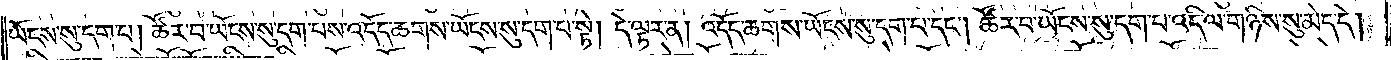ཡོངས་སུ་དག་པ། ཚོར་བ་ཡོངས་སུ་དག་པས་འདོད་ཆགས་ཡོངས་སུ་དག་པ་སྟེ། དེ་ལྟར་ན། འདོད་ཆགས་ཡོངས་སུ་དག་པ་དང༌། ཚོར་བ་ཡོངས་སུ་དག་པ་འདི་ལ་གཉིས་སུ་མེད་དེ།
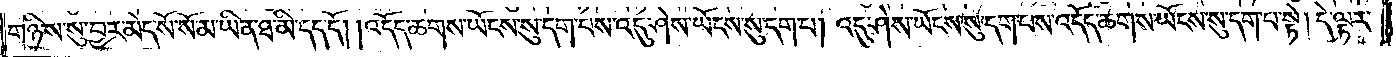གཉིས་སུ་བྱར་མེད་སོ་སོ་མ་ཡིན་ཐ་མི་དད་དོ། །འདོད་ཆགས་ཡོངས་སུ་དག་པས་འདུ་ཤེས་ཡོངས་སུ་དག་པ། འདུ་ཤེས་ཡོངས་སུ་དག་པས་འདོད་ཆགས་ཡོངས་སུ་དག་པ་སྟེ། དེ་ལྟར་
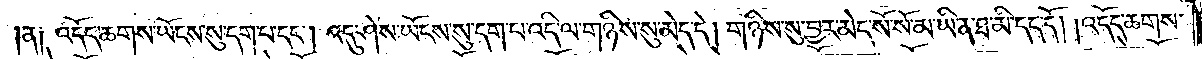ན༑ འདོད་ཆགས་ཡོངས་སུ་དག་པ་དང༌། འདུ་ཤེས་ཡོངས་སུ་དག་པ་འདི་ལ་གཉིས་སུ་མེད་དེ། གཉིས་སུ་བྱར་མེད་སོ་སོ་མ་ཡིན་ཐ་མི་དད་དོ། །འདོད་ཆགས་
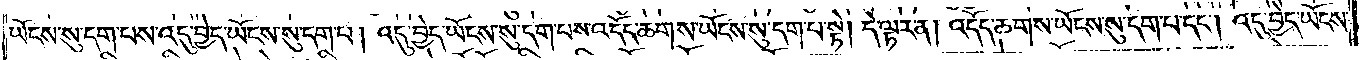ཡོངས་སུ་དག་པས་འདུ་བྱེད་ཡོངས་སུ་དག་པ། འདུ་བྱེད་ཡོངས་སུ་དག་པས་འདོད་ཆགས་ཡོངས་སུ་དག་པ་སྟེ། དེ་ལྟར་ན། འདོད་ཆགས་ཡོངས་སུ་དག་པ་དང༌། འདུ་བྱེད་ཡོངས་
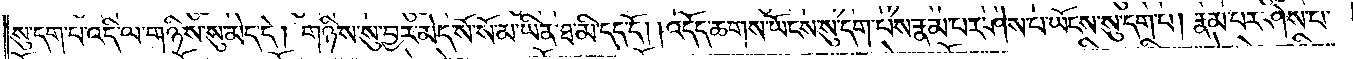སུ་དག་པ་འདི་ལ་གཉིས་སུ་མེད་དེ། གཉིས་སུ་བྱར་མེད་སོ་སོ་མ་ཡིན་ཐ་མི་དད་དོ། །འདོད་ཆགས་ཡོངས་སུ་དག་པས་རྣམ་པར་ཤེས་པ་ཡོངས་སུ་དག་པ། རྣམ་པར་ཤེས་པ་
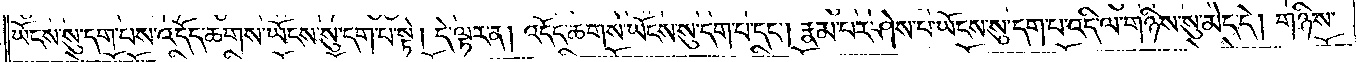ཡོངས་སུ་དག་པས་འདོད་ཆགས་ཡོངས་སུ་དག་པ་སྟེ། དེ་ལྟར་ན། འདོད་ཆགས་ཡོངས་སུ་དག་པ་དང༌། རྣམ་པར་ཤེས་པ་ཡོངས་སུ་དག་པ་འདི་ལ་གཉིས་སུ་མེད་དེ། གཉིས་
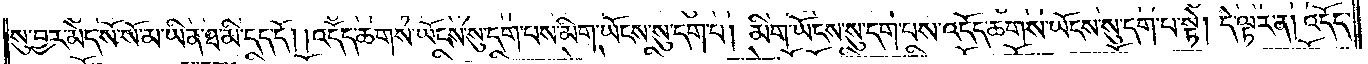སུ་བྱར་མེད་སོ་སོ་མ་ཡིན་ཐ་མི་དད་དོ། །འདོད་ཆགས་ཡོངས་སུ་དག་པས་མིག་ཡོངས་སུ་དག་པ། མིག་ཡོངས་སུ་དག་པས་འདོད་ཆགས་ཡོངས་སུ་དག་པ་སྟེ། དེ་ལྟར་ན། འདོད་
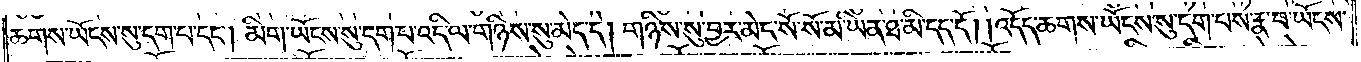ཆགས་ཡོངས་སུ་དག་པ་དང༌། མིག་ཡོངས་སུ་དག་པ་འདི་ལ་གཉིས་སུ་མེད་དེ། གཉིས་སུ་བྱར་མེད་སོ་སོ་མ་ཡིན་ཐ་མི་དད་དོ། །འདོད་ཆགས་ཡོངས་སུ་དག་པས་རྣ་བ་ཡོངས་
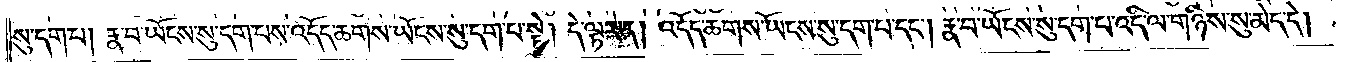སུ་དག་པ། རྣ་བ་ཡོངས་སུ་དག་པས་འདོད་ཆགས་ཡོངས་སུ་དག་པ་སྟེ། དེ་ལྟར་ན། འདོད་ཆགས་ཡོངས་སུ་དག་པ་དང༌། རྣ་བ་ཡོངས་སུ་དག་པ་འདི་ལ་གཉིས་སུ་མེད་དེ་
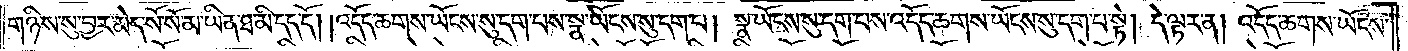གཉིས་སུ་བྱར་མེད་སོ་སོ་མ་ཡིན་ཐ་མི་དད་དོ། །འདོད་ཆགས་ཡོངས་སུ་དག་པས་སྣ་ཡོངས་སུ་དག་པ། སྣ་ཡོངས་སུ་དག་པས་འདོད་ཆགས་ཡོངས་སུ་དག་པ་སྟེ། དེ་ལྟར་ན། འདོད་ཆགས་ཡོངས་
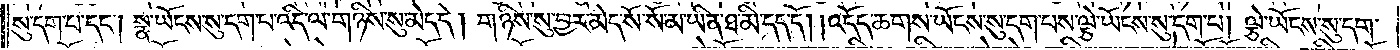སུ་དག་པ་དང༌། སྣ་ཡོངས་སུ་དག་པ་འདི་ལ་གཉིས་སུ་མེད་དེ། གཉིས་སུ་བྱར་མེད་སོ་སོ་མ་ཡིན་ཐ་མི་དད་དོ། །འདོད་ཆགས་ཡོངས་སུ་དག་པས་ལྕེ་ཡོངས་སུ་དག་པ། ལྕེ་ཡོངས་སུ་དག་
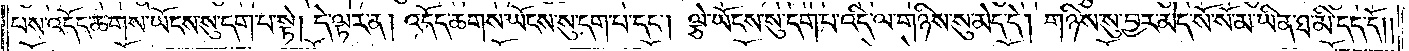པས་འདོད་ཆགས་ཡོངས་སུ་དག་པ་སྟེ། དེ་ལྟར་ན། འདོད་ཆགས་ཡོངས་སུ་དག་པ་དང༌། ལྕེ་ཡོངས་སུ་དག་པ་འདི་ལ་གཉིས་སུ་མེད་དེ། གཉིས་སུ་བྱར་མེད་སོ་སོ་མ་ཡིན་ཐ་མི་དད་དོ། །
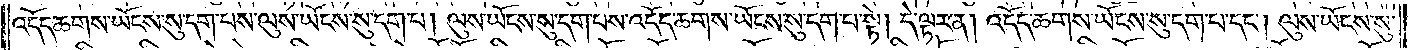འདོད་ཆགས་ཡོངས་སུ་དག་པས་ལུས་ཡོངས་སུ་དག་པ། ལུས་ཡོངས་སུ་དག་པས་འདོད་ཆགས་ཡོངས་སུ་དག་པ་སྟེ། དེ་ལྟར་ན། འདོད་ཆགས་ཡོངས་སུ་དག་པ་དང༌། ལུས་ཡོངས་སུ་
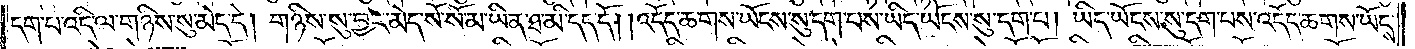དག་པ་འདི་ལ་གཉིས་སུ་མེད་དེ། གཉིས་སུ་བྱར་མེད་སོ་སོ་མ་ཡིན་ཐ་མི་དད་དོ། །འདོད་ཆགས་ཡོངས་སུ་དག་པས་ཡིད་ཡོངས་སུ་དག་པ། ཡིད་ཡོངས་སུ་དག་པས་འདོད་ཆགས་ཡོངས་
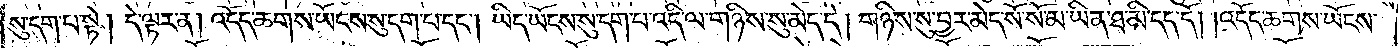སུ་དག་པ་སྟེ། དེ་ལྟར་ན། འདོད་ཆགས་ཡོངས་སུ་དག་པ་དང༌། ཡིད་ཡོངས་སུ་དག་པ་འདི་ལ་གཉིས་སུ་མེད་དེ། གཉིས་སུ་བྱར་མེད་སོ་སོ་མ་ཡིན་ཐ་མི་དད་དོ། །འདོད་ཆགས་ཡོངས་
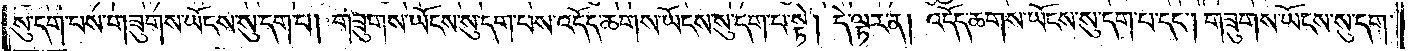སུ་དག་པས་གཟུགས་ཡོངས་སུ་དག་པ། གཟུགས་ཡོངས་སུ་དག་པས་འདོད་ཆགས་ཡོངས་སུ་དག་པ་སྟེ། དེ་ལྟར་ན། འདོད་ཆགས་ཡོངས་སུ་དག་པ་དང༌། གཟུགས་ཡོངས་སུ་དག་
